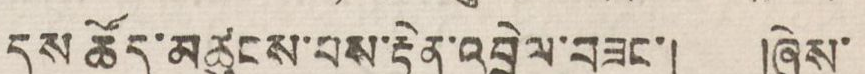དུས་ཚོད་མཚུངས་པས་རྟེན་འབྲེལ་བཟང་། །ཞེས་
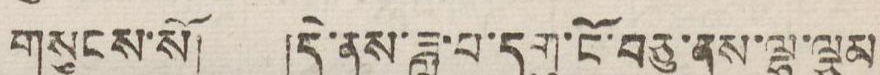གསུངས་སོ། དེ་ནས་ཟླ་བ་དགུ་ངོ་བཅུ་ནས་ལྕམ
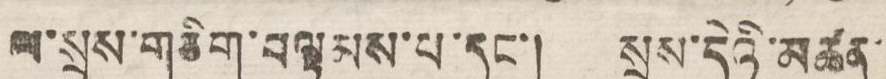ལ་སྲས་གཅིག་བལྟམས་པ་དང་། སྲས་དེའི་མཚན་
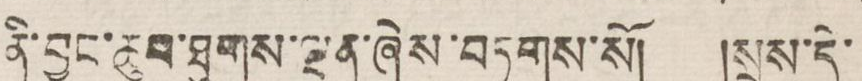ནི་བྱང་ཆུབ་ཐུགས་ལྡན་ཞེས་བཏགས་སོ། སྲས་དེ་
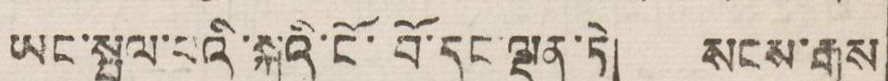ཡང་སྤྲུལ་པའི་སྐུའི་ངོ་བོ་དང་ལྡན་ཏེ། སངས་རྒྱས
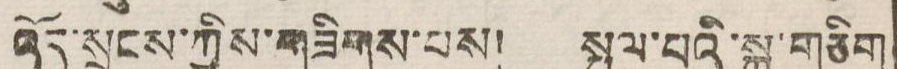འོད་སྲུངས་ཀྱིས་གཟིགས་པས། སྤྲུལ་པའི་སྐུ་གཅིག
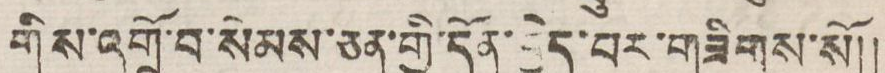གིས་འགྲོ་བ་སེམས་ཅན་གྱི་དོན་བྱེད་བར་གཟིགས་སོ།།
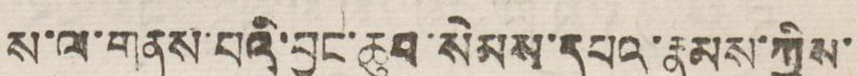ས་ལ་གནས་པའི་བྱང་ཆུབ་སེམས་དཔའ་རྣམས་ཀྱིས་
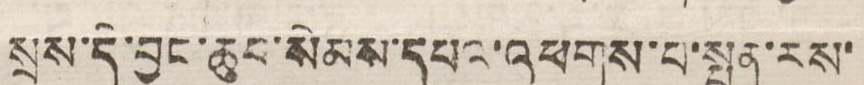སྲས་དེ་བྱང་ཆུབ་སེམས་དཔའ་འཕགས་པ་སྤྱན་རས་
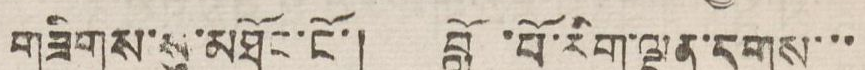གཟིགས་སུ་མཐོང་ངོ་། བློ་བོ་རིག་ལྡན་དགས་་་
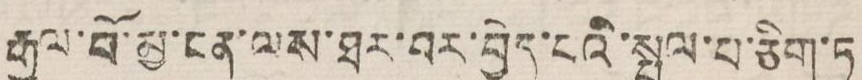རྒྱལ་བོ་མྱ་ངན་ལས་ཐར་བར་བྱེད་པའི་སྤྲུལ་པ་ཅིག་ཏུ
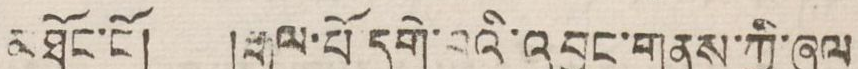མཐོང་ངོ། །རྒྱལ་པོ དགེ་བའི་འབྱུང་གནས་ཀྱི་ཞལ
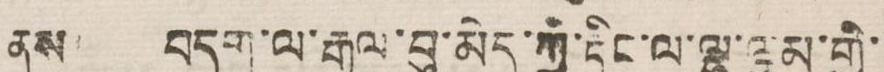ནས། བདག་ལ་རྒྱལ་བུ་མེད་ཀྱི་རྟིང་ལ་ལྷ་ལྕམ་གྱི་
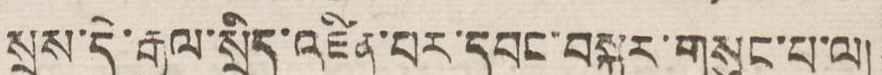སྲས་དེ་རྒྱལ་སྲིད་འཛིན་པར་དབང་བསྐུར་གསུང་པ་ལ།
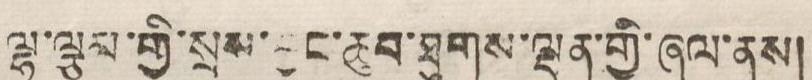ལྷ་ལྕམ་གྱི་སྲས་བྱང་ཆུབ་ཐུསག་ལྡན་གྱི་ཞལ་ནས།
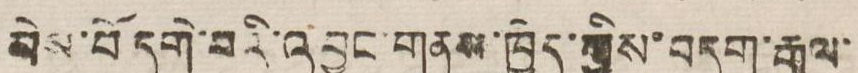བེས་བོ་དགེ་བའི་འབྱུང་གནས་ཁྱེད་ཀྱིས་བདག་རྒྱལ་
